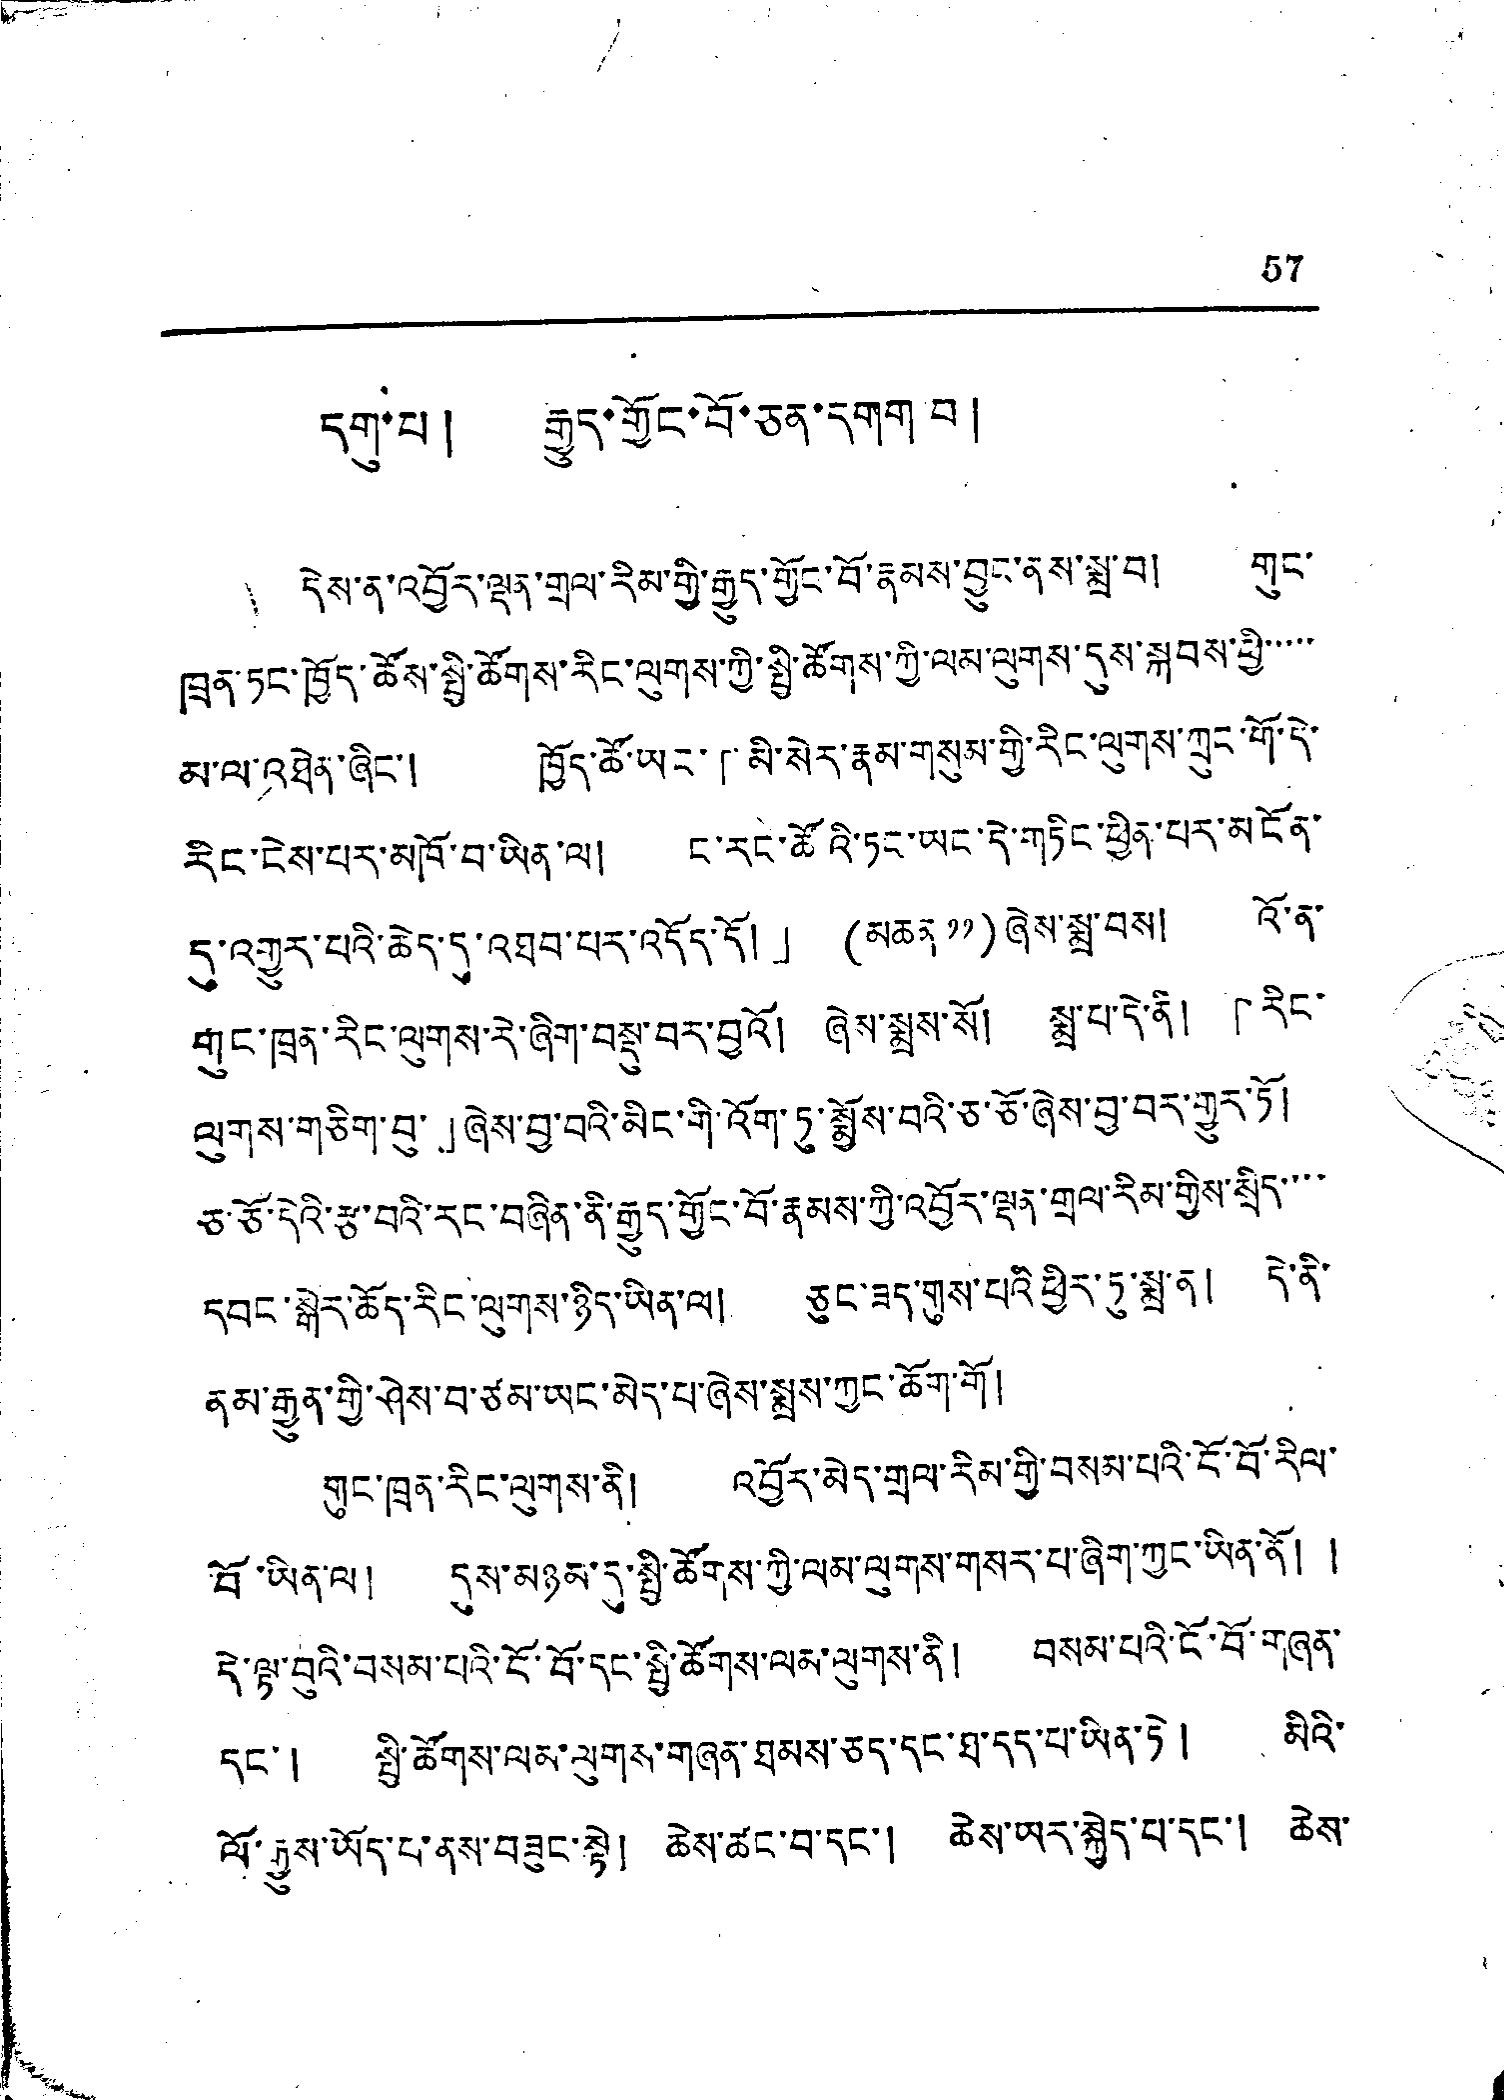57
དགུ་པ། རྒྱུད་གྱོང་བོ་ཅན་དགག་བ།
དེས་ན་འབྱོར་ལྡན་གྲལ་རིམ་གྱི་རྒྱུད་གྱོང་བོ་རྣམས་བྱུད་ནས་སྨྲ་བ། གུང་
ཁྲན་ཏང་ཁྱོད་ཚོས་སྤྱི་ཚོགས་རིང་ལུགས་ཀྱི་སྤྱི་ཚོགས་ཀྱི་ལམ་ལུགས་དུས་སྐབས་ཕྱི་་་་་
མ་ལ་འཐེན་ཞིང་། ཁྱོད་ཚོ་ཡང་「མི་སེར་རྣམ་གསུལ་གྱི་རིང་ལུགས་ཀྲུང་གོ་དེ་
རིང་ངེས་པར་མཁོ་བ་ཡིན་ལ། ང་རང་ཚོའི་ཏང་ཡང་དེ་གཏིང་ཕྱིན་པར་མངོན་
དུ་འགྱུར་པའི་ཆེད་དུ་འཐབ་པར་འདོད་དོ། ། (མཆན ༡༡)ཞེས་སྨྲ་བས། འོ་ན་
གུང་ཁྲན་རིང་ལུགས་རེ་ཞིག་བསྡུ་བར་བྱའོ། ཞེས་སྨྲས་སོ། སྨྲ་པ་དེ་ནི། 「རིང་
ལུགས་གཅིག་བུ་」ཞེས་བྱས་བའི་མིང་གི་འོག་ཏུ་སྨྱོས་བའི་ཅ་ཅོ་ཞེས་བྱ་བར་གྱུར་ཏོ།
ཅ་ཅོ་དེའི་རྩ་བའི་རང་བཞིན་ནི་རྒྱུད་གྱོང་བོ་རྣམས་ཀྱི་འབྱོར་ལྡན་གྲལ་རིམ་གྱིས་སྲིད་་་་
དབང་སྒེར་ཆོད་རིང་ལུགས་ཉིད་ཡིན་ལ། ཅུང་ཟད་གུས་པའི་ཕྱིར་ཏུ་སྨྲ་ན། དེ་ནི་
ནམ་རྒྱན་གྱི་ཤེས་བ་ཙམ་ཡང་མེད་པ་ཞེས་སྨྲས་ཀྱང་ཆོག་གོ།
གུང་ཁྲན་རིང་ལུགས་ནི། འབྱོར་མེད་གྲལ་རིམ་གྱི་བསམ་པའི་ངོ་བོ་རིལ་
བོ་ཡིན་ལ། དུས་མཉམ་དུ་སྤྱི་ཚོགས་ཀྱི་ལམ་ལུགས་གསར་པ་ཞིག་ཀྱང་ཡིན་ནོ། །
དེ་ལྟ་བུའི་བསམ་པའི་ངོ་བོ་དང་སྤྱི་ཚོགས་ལམ་ལུགས་ནི ། བསམ་པའི་ངོ་བོ་གཞན་
དང་། སྤྱི་ཚོགས་ལམ་ལུགས་གཞན་ཐམས་ཅད་དང་ཐུ་དད་པ་ཡིན་ཏེ། མིའི་
ལོ་རྒྱུས་ཡོད་པ་ནས་བཟུང་སྟེ། ཆེས་ཚང་བ་དང་། ཆེས་ཡར་སྐྱེད་པ་དང་། ཆེས་
